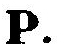P.
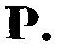P.
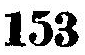153
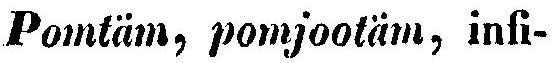Pomtäm, pomjootäm, infi-
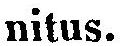nitus.
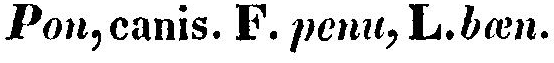Pon, canis. F. penu, L. bæn.
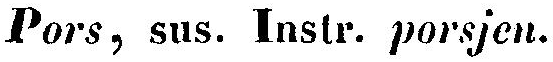Pors, sus. Instr. porsjen.
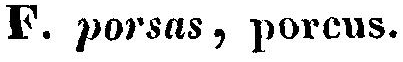F. porsas, porcus.
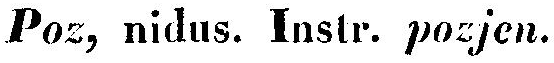Poz, nidus. Instr. pozjen.
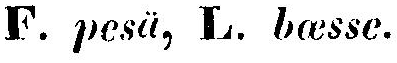F. pesä, L. bæsse.
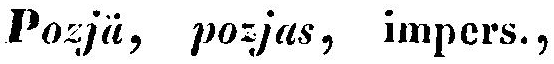Pozjä, pozjas, impers.,
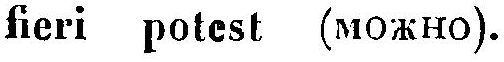fieri potest (можно).
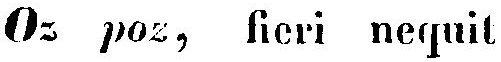Oz poz, fieri nequit
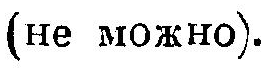(не можно).
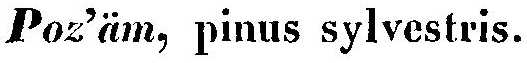Poz'äm, pinus sylvestris.
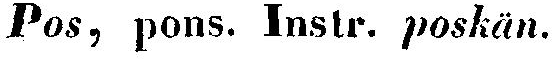Pos, pons. Instr. poskän.
